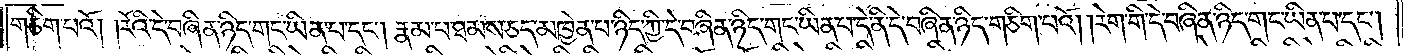གཅིག་པའོ། །རོའི་དེ་བཞིན་ཉིད་གང་ཡིན་པ་དང༌། རྣམ་པ་ཐམས་ཅད་མཁྱེན་པ་ཉིད་ཀྱི་དེ་བཞིན་ཉིད་གང་ཡིན་པ་དེ་ནི་དེ་བཞིན་ཉིད་གཅིག་པའོ། །རེག་གི་དེ་བཞིན་ཉིད་གང་ཡིན་པ་དང༌།
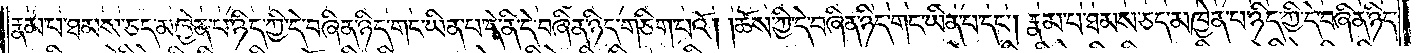རྣམ་པ་ཐམས་ཅད་མཁྱེན་པ་ཉིད་ཀྱི་དེ་བཞིན་ཉིད་གང་ཡིན་པ་དེ་ནི་དེ་བཞིན་ཉིད་གང་གཅིག་པའོ། །ཆོས་ཀྱི་དེ་བཞིན་ཉིད་གང་ཡིན་པ་དང༌། རྣམ་པ་ཐམས་ཅད་མཁྱེན་པ་ཉིད་ཀྱི་དེ་བཞིན་ཉིད་
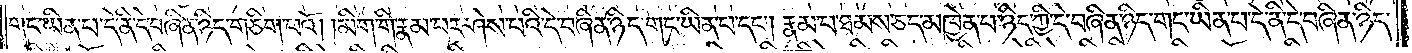གང་ཡིན་པ་དེ་ནི་དེ་བཞིན་ཉིད་གཅིག་པའོ། །མིག་གི་རྣམ་པར་ཤེས་པའི་དེ་བཞིན་ཉིད་གང་ཡིན་པ་དང༌། རྣམ་པ་ཐམས་ཅད་མཁྱེན་པ་ཉིད་ཀྱི་དེ་བཞིན་ཉིད་གང་ཡིན་པ་དེ་ནི་དེ་བཞིན་ཉིད་
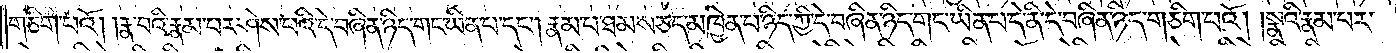གཅིག་པའོ། །རྣ་བའི་རྣམ་པར་ཤེས་པའི་དེ་བཞིན་ཉིད་གང་ཡིན་པ་དང༌། རྣམ་པ་ཐམས་ཅད་མཁྱེན་པ་ཉིད་ཀྱི་དེ་བཞིན་ཉིད་གང་ཡིན་པ་དེ་ནི་དེ་བཞིན་ཉིད་གཅིག་པའོ། །སྣའི་རྣམ་པར་
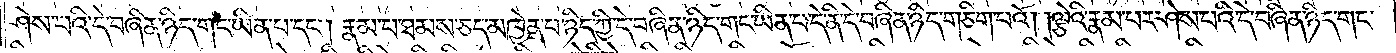ཤེས་པའི་དེ་བཞིན་ཉིད་གང་ཡིན་པ་ཡང༌། རྣམ་པ་ཐམས་ཅད་མཁྱེན་པ་ཉིད་ཀྱི་དེ་བཞིན་ཉིད་གང་ཡིན་པ་དེ་ནི་དེ་བཞིན་ཉིད་གཅིག་པའོ། །ལྕེའི་རྣམ་པར་ཤེས་པའི་དེ་བཞིན་ཉིད་གང་
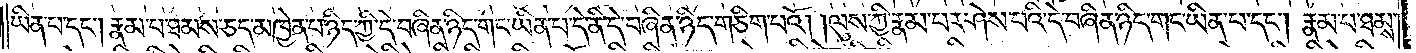ཡིན་པ་དང༌། རྣམ་པ་ཐམས་ཅད་མཁྱེན་པ་ཉིད་ཀྱི་དེ་བཞིན་ཉིད་གང་ཡིན་པ་དེ་ནི་དེ་བཞིན་ཉིད་གཅིག་པའོ། །ལུས་ཀྱི་རྣམ་པར་ཤེས་པའི་དེ་བཞིན་ཉིད་གང་ཡིན་པ་དང༌། རྣམ་པ་ཐམས་
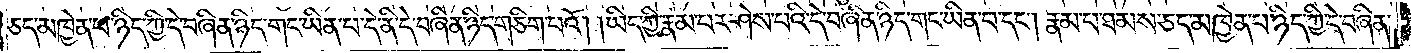ཅད་མཁྱེན་པ་ཉིད་ཀྱི་དེ་བཞིན་ཉིད་གང་ཡིན་པ་དེ་ནི་དེ་བཞིན་ཉིད་གཅིག་པའོ། །ཡིད་ཀྱི་རྣམ་པར་ཤེས་པའི་དེ་བཞིན་ཉིད་གང་ཡིན་པ་དང༌། རྣམ་པ་ཐམས་ཅད་མཁྱེན་པ་ཉིད་ཀྱི་དེ་བཞིན་
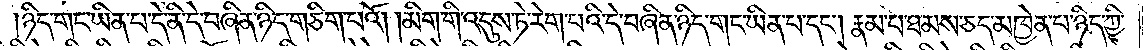ཉིད་གང་ཡིན་པ་དེ་ནི་དེ་བཞིན་ཉིད་གཅིག་པའོ། །མིག་གི་འདུས་ཏེ་རེག་པའི་དེ་བཞིན་ཉིད་གང་ཡིན་པ་དང༌། རྣམ་པ་ཐམས་ཅད་མཁྱེན་པ་ཉིད་ཀྱི་
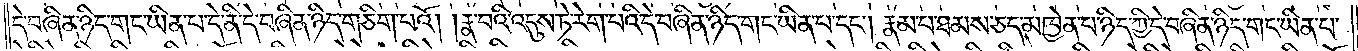དེ་བཞིན་ཉིད་གང་ཡིན་པ་དེ་ནི་དེ་བཞིན་ཉིད་གཅིག་པའོ། །རྣ་བའི་འདུས་ཏེ་རེག་པའི་དེ་བཞིན་ཉིད་གང་ཡིན་པ་དང༌། རྣམ་པ་ཐམས་ཅད་མཁྱེན་པ་ཉིད་ཀྱི་དེ་བཞིན་ཉིད་གང་ཡིན་པ་
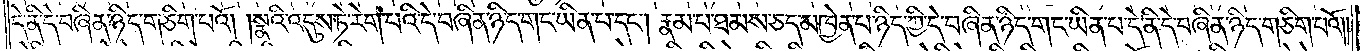དེ་ནི་དེ་བཞིན་ཉིད་གཅིག་པའོ། །སྣའི་འདུས་ཏེ་རེག་པའི་དེ་བཞིན་ཉིད་གང་ཡིན་པ་དང༌། རྣམ་པ་ཐམས་ཅད་མཁྱེན་པ་ཉིད་ཀྱི་དེ་བཞིན་ཉིད་གང་ཡིན་པ་དེ་ནི་དེ་བཞིན་ཉིད་གཅིག་པའོ༎
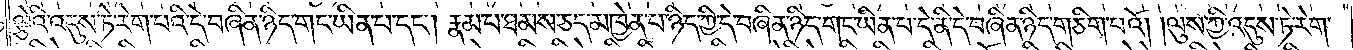ལྕེའི་འདུས་ཏེ་རེག་པའི་དེ་བཞིན་ཉིད་གང་ཡིན་པ་དང༌། རྣམ་པ་ཐམས་ཅད་མཁྱེན་པ་ཉིད་ཀྱི་དེ་བཞིན་ཉིད་གང་ཡིན་པ་དེ་ནི་དེ་བཞིན་ཉིད་གཅིག་པའོ། །ལུས་ཀྱི་འདུས་ཏེ་རེག་
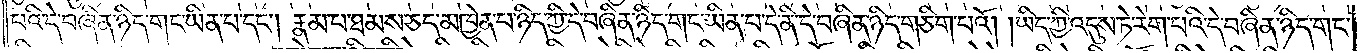པའི་དེ་བཞིན་ཉིད་གང་ཡིན་པ་དང༌། རྣམ་པ་ཐམས་ཅད་མཁྱེན་པ་ཉིད་ཀྱི་དེ་བཞིན་ཉིད་གང་ཡིན་པ་དེ་ནི་དེ་བཞིན་ཉིད་གཅིག་པའོ། །ཡིད་ཀྱི་འདུས་ཏེ་རེག་པའི་དེ་བཞིན་ཉིད་གང་
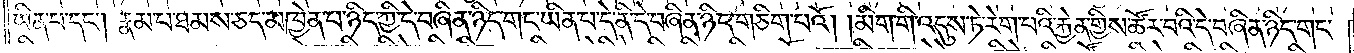ཡིན་པ་དང༌། རྣམ་པ་ཐམས་ཅད་མཁྱེན་པ་ཉིད་ཀྱི་དེ་བཞིན་ཉིད་གང་ཡིན་པ་དེ་ནི་དེ་བཞིན་ཉིད་གཅིག་པའོ། །མིག་གི་འདུས་ཏེ་རེག་པའི་རྐྱེན་གྱིས་ཚོར་བའི་དེ་བཞིན་ཉིད་གང་
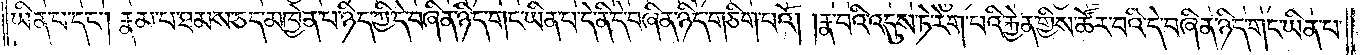ཡིན་པ་དང༌། རྣམ་པ་ཐམས་ཅད་མཁྱེན་པ་ཉིད་ཀྱི་དེ་བཞིན་ཉིད་གང་ཡིན་པ་དེ་ནི་དེ་བཞིན་ཉིད་གཅིག་པའོ། །རྣ་བའི་འདུས་ཏེ་རེག་པའི་རྐྱེན་གྱིས་ཚོར་བའི་དེ་བཞིན་ཉིད་གང་ཡིན་པ་
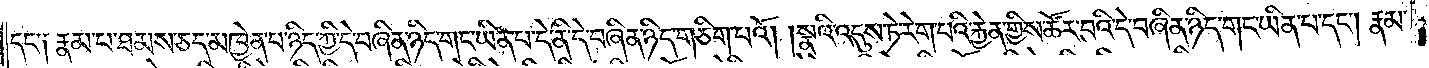དང༌། རྣམ་པ་ཐམས་ཅད་མཁྱེན་པ་ཉིད་ཀྱི་དེ་བཞིན་ཉིད་གང་ཡིན་པ་དེ་ནི་དེ་བཞིན་ཉིད་གཅིག་པའོ། །སྣའི་འདུས་ཏེ་རེག་པའི་རྐྱེན་གྱིས་ཚོར་བའི་དེ་བཞིན་ཉིད་གང་ཡིན་པ་དང༌། རྣམ་
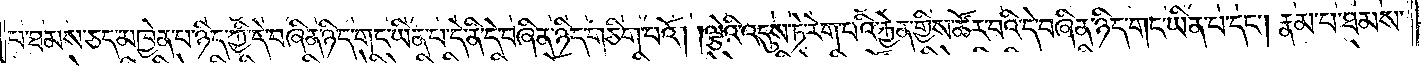པ་ཐམས་ཅད་མཁྱེན་པ་ཉིད་ཀྱི་དེ་བཞིན་ཉིད་གང་ཡིན་པ་དེ་ནི་དེ་བཞིན་ཉིད་གཅིག་པའོ། །ལྕེའི་འདུས་ཏེ་རེག་པའི་རྐྱེན་གྱིས་ཚོར་བའི་དེ་བཞིན་ཉིད་གང་ཡིན་པ་དང༌། རྣམ་པ་ཐམས་
